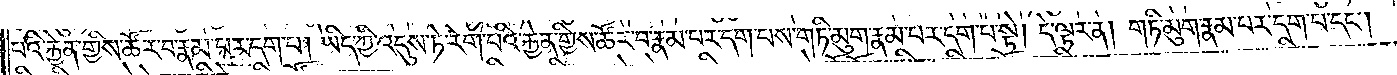པའི་རྐྱེན་གྱིས་ཚོར་བ་རྣམ་པར་དག་པ། ཡིད་ཀྱི་འདུས་ཏེ་རེག་པའི་རྐྱེན་གྱིས་ཚོར་བ་རྣམ་པར་དག་པས་གཏི་མུག་རྣམ་པར་དག་པ་སྟེ། དེ་ལྟར་ན། གཏི་མུག་རྣམ་པར་དག་པ་དང༌།
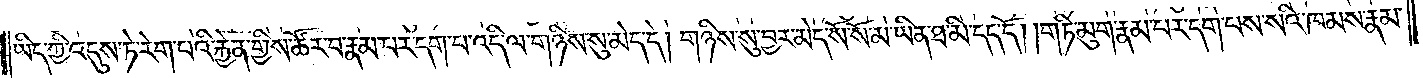ཡིད་ཀྱི་འདུས་ཏེ་རེག་པའི་རྐྱེན་གྱིས་ཚོར་བ་རྣམ་པར་དག་པ་འདི་ལ་གཉིས་སུ་མེད་དེ། གཉིས་སུ་བྱར་མེད་སོ་སོ་མ་ཡིན་ཐ་མི་དད་དོ། །གཏི་མུག་རྣམ་པར་དག་པས་སའི་ཁམས་རྣམ་
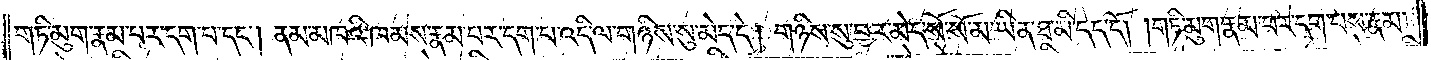གཏི་མུག་རྣམ་པར་དག་པ་དང༌། ནམ་མཁའི་ཁམས་རྣམ་པར་དག་པ་འདི་ལ་གཉིས་སུ་མེད་དེ། གཉིས་སུ་བྱར་མེད་སོ་སོ་མ་ཡིན་ཐ་མི་དད་དོ། །གཏི་མུག་རྣམ་པར་དག་པས་རྣམ་
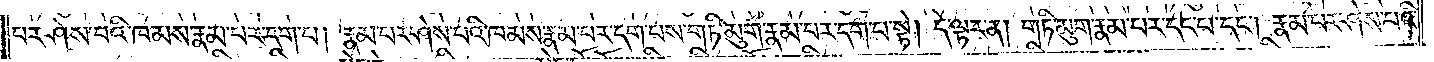པར་ཤེས་པའི་ཁམས་རྣམ་པར་དག་པ། རྣམ་པར་ཤེས་པའི་ཁམས་རྣམ་པར་དག་པས་གཏི་མུག་རྣམ་པར་དག་པ་སྟེ། དེ་ལྟར་ན། གཏི་མུག་རྣམ་པར་དག་པ་དང༌། རྣམ་པར་ཤེས་པའི་
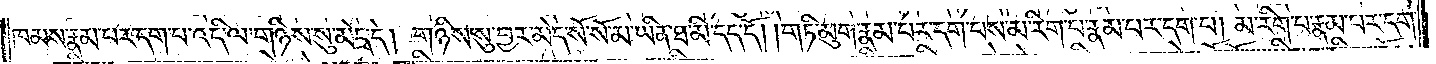ཁམས་རྣམ་པར་དག་པ་འདི་ལ་གཉིས་སུ་མེད་དེ། གཉིས་སུ་བྱར་མེད་སོ་སོ་མ་ཡིན་ཐ་མི་དད་དོ། །གཏི་མུག་རྣམ་པར་དག་པས་མ་རིག་པ་རྣམ་པར་དག་པ། མ་རིག་པ་རྣམ་པར་དག་
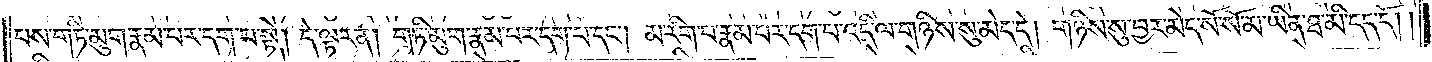པས་གཏི་མུག་རྣམ་པར་དག་པ་སྟེ། དེ་ལྟར་ན། གཏི་མུག་རྣམ་པར་དག་པ་དང༌། མ་རིག་པ་རྣམ་པར་དག་པ་འདི་ལ་གཉིས་སུ་མེད་དེ། གཉིས་སུ་བྱར་མེད་སོ་སོ་མ་ཡིན་ཐ་མི་དད་དོ། །
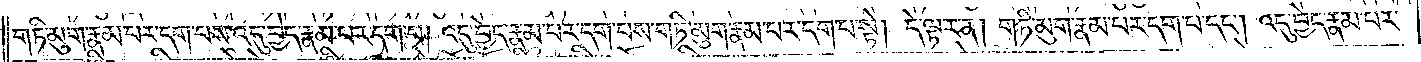གཏི་མུག་རྣམ་པར་དག་པས་འདུ་བྱེད་རྣམ་པར་དག་པ། འདུ་བྱེད་རྣམ་པར་དག་པས་གཏི་མུག་རྣམ་པར་དག་པ་སྟེ། དེ་ལྟར་ན། གཏི་མུག་རྣམ་པར་དག་པ་དང༌། འདུ་བྱེད་རྣམ་པར་
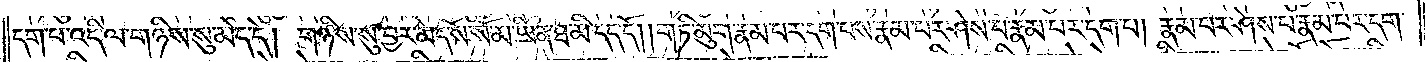དག་པ་འདི་ལ་གཉིས་སུ་མེད་དེ། གཉིས་སུ་བྱར་མེད་སོ་སོ་མ་ཡིན་ཐ་མི་དད་དོ། །གཏི་མུག་རྣམ་པར་དག་པས་རྣམ་པར་ཤེས་པ་རྣམ་པར་དག་པ། རྣམ་པར་ཤེས་པ་རྣམ་པར་དག་
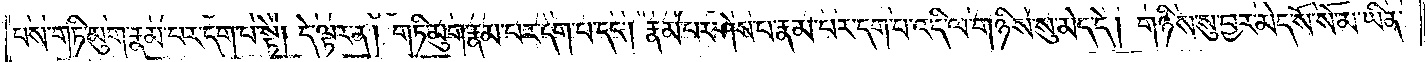པས་གཏི་མུག་རྣམ་པར་དག་པ་སྟེ། དེ་ལྟར་ན། གཏི་མུག་རྣམ་པར་དག་པ་དང༌། རྣམ་པར་ཤེས་པ་རྣམ་པར་དག་པ་འདི་ལ་གཉིས་སུ་མེད་དེ། གཉིས་སུ་བྱར་མེད་སོ་སོ་མ་ཡིན་
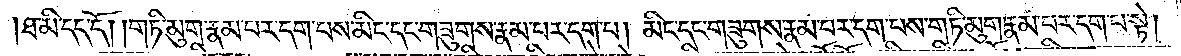ཐ་མི་དད་དོ། །གཏི་མུག་རྣམ་པར་དག་པས་མིང་དང་གཟུགས་རྣམ་པར་དག་པ། མིང་དང་གཟུགས་རྣམ་པར་དག་པས་གཏི་མུག་རྣམ་པར་དག་པ་སྟེ།
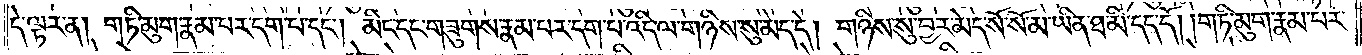དེ་ལྟར་ན། གཏི་མུག་རྣམ་པར་དག་པ་དང༌། མིང་དང་གཟུགས་རྣམ་པར་དག་པ་འདི་ལ་གཉིས་སུ་མེད་དེ། གཉིས་སུ་བྱར་མེད་སོ་སོ་མ་ཡིན་ཐ་མི་དད་དོ། །གཏི་མུག་རྣམ་པར་
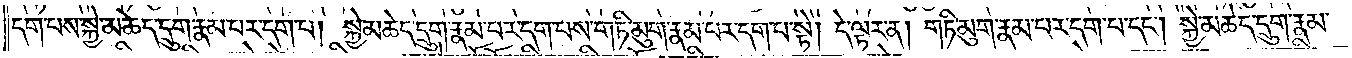དག་པས་སྐྱེ་མཆེད་དྲུག་རྣམ་པར་དག་པ། སྐྱེ་མཆེད་དྲུག་རྣམ་པར་དག་པས་གཏི་མུག་རྣམ་པར་དག་པ་སྟེ། དེ་ལྟར་ན། གཏི་མུག་རྣམ་པར་དག་པ་དང༌། སྐྱེ་མཆེད་དྲུག་རྣམ་
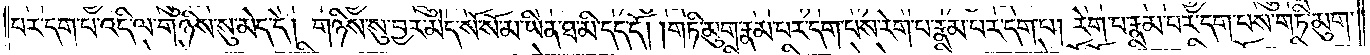པར་དག་པ་འདི་ལ་གཉིས་སུ་མེད་དེ། གཉིས་སུ་བྱར་མེད་སོ་སོ་མ་ཡིན་ཐ་མི་དད་དོ། །གཏི་མུག་རྣམ་པར་དག་པས་རེག་པ་རྣམ་པར་དག་པ། རེག་པ་རྣམ་པར་དག་པས་གཏི་མུག་
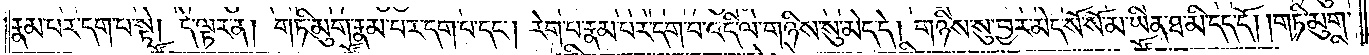རྣམ་པར་དག་པ་སྟེ། དེ་ལྟར་ན། གཏི་མུག་རྣམ་པར་དག་པ་དང༌། རེག་པ་རྣམ་པར་དག་པ་འདི་ལ་གཉིས་སུ་མེད་དེ། གཉིས་སུ་བྱར་མེད་སོ་སོ་མ་ཡིན་ཐ་མི་དད་དོ། །གཏི་མུག་
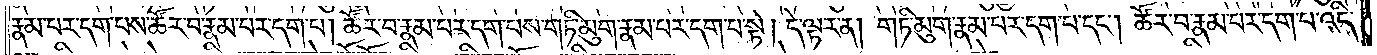རྣམ་པར་དག་པས་ཚོར་བ་རྣམ་པར་དག་པ། ཚོར་བ་རྣམ་པར་དག་པས་གཏི་མུག་རྣམ་པར་དག་པ་སྟེ། དེ་ལྟར་ན། གཏི་མུག་རྣམ་པར་དག་པ་དང༌། ཚོར་བ་རྣམ་པར་དག་པ་འདི་
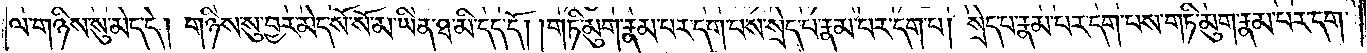ལ་གཉིས་སུ་མེད་དེ་གཉིས་སུ་བྱར་མེད་སོ་སོ་མ་ཡིན་ཐ་མི་དད་དོ། །གཏི་མུག་རྣམ་པར་དག་པས་སྲེད་པ་རྣམ་པར་དག་པ། སྲེད་པ་རྣམ་པར་དག་པས་གཏི་མུག་རྣམ་པར་དག་
